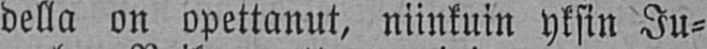della on opettanut, niinkuin yksin Ju-
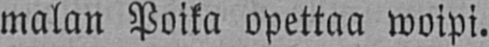malan Poika opettaa woipi.
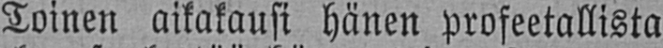Toinen aikakausi hänen profeetallista
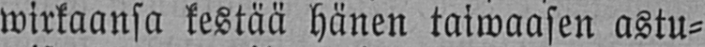wirkaansa kestää hänen taiwaasen astu-
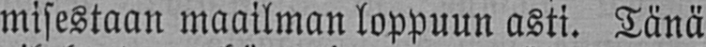misestaan maailman loppuun asti. Tänä
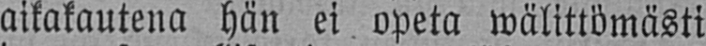aikakautena hän ei opeta wälittömästi
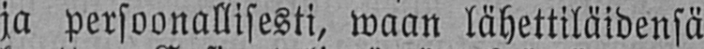ja persoonallisesti, waan lähettiläidensä
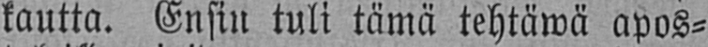kautta. Ensin tuli tämä tehtäwä apos-
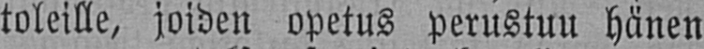toleille, joiden opetus perustuu hänen
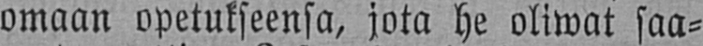omaan opetukseensa, jota he oliwat saa-
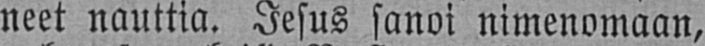neet nauttia. Jesus sanoi nimenomaan,
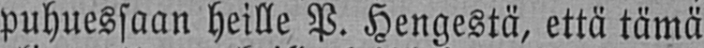puhuessaan heille P. Hengestä, että tämä
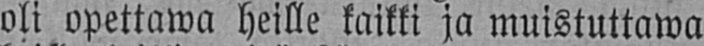oli opettawa heille kaikki ja muistuttawa
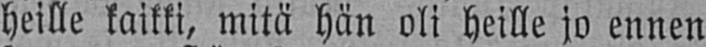heille kaikki, mitä hän oli heille jo ennen
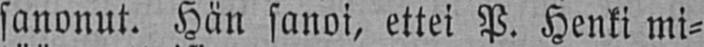sanonut. Hän sanoi, ettei P. Henki mi-
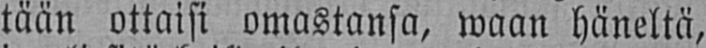tään ottaisi omastansa, waan häneltä,
